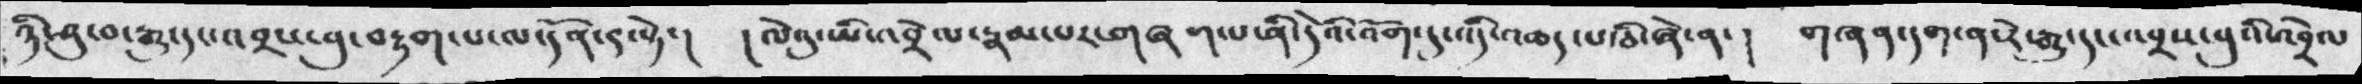ཉི་ཤཱུ་བ་རྒྱུ་དང་འབྲས་བུ་བརྟག་པ་ལ་དོན་༩་སྟེ་། །ལེའུ་ཡི་འབྲེལ་རྣམ་པར་གཞག་པ་ནི་དེའི་འོག་དུ་འདི་འཆད་པ་ཅི་ཞེ་ན་། གཞཉ་དག་ན་རེ་རྒྱུ་དང་འབྲས་བུའི་འབྲེལ་
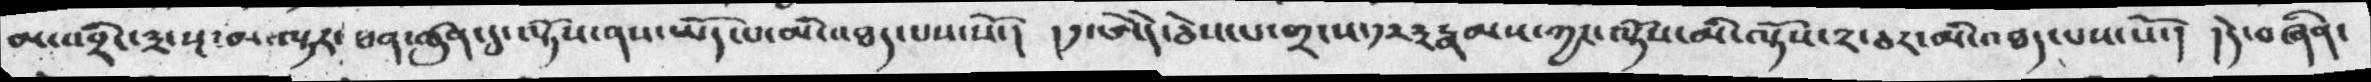མ་འབྲེང་༣་སྔ་མ་ལྟར་ཕན་ཚུན་དུ་ལྟོས་ནས་ཡོད་པ་མི་འཐད་པས་སོ་། །ད༡་ཨེདེ་ཅེས་པ་གྲངས་༡༢༣རྣམས་ཀྱང་ལྟོས་མི་ལྟོས་༢་ཅར་མི་འཐད་པས་སོ་། །དེ་བཞིན་
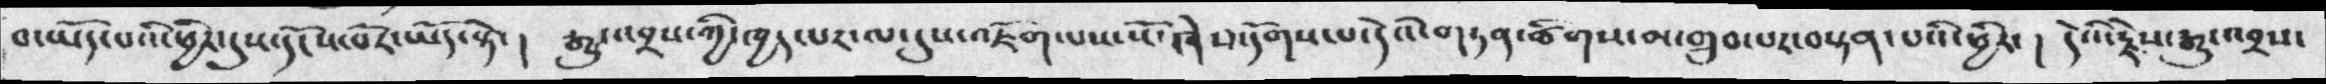བ་ཡདོ་པའི་ཕྱིར་དུས་དངོས་པོར་ཡོད་སྟེ་། རྒྱུ་འབྲས་ཀྱི་ཁྱད་པར་ལ་དུས་འཇོག་པས་སོ་ཞེས་དོགས་པ་དེའི་གཏན་ཚིགས་མ་གྲུབ་པར་བསྟན་པའི་ཕྱིར་། དེའི་རྗེས་རྒྱུ་འབྲས་
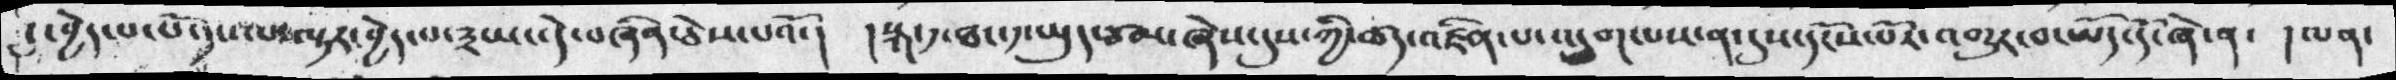དུ་བྱེད་པ་དང་ལ་ལྟར་བྱེད་པ་༣ཡང་དེ་བཞིན་ཅེས་པའོ་། །སྐ་༡་ཐང་༡་ཡུད་ཙམ་ཞེས་དུས་ཀྱི་ཚད་འཛིན་པ་འདུག་པས་ན་དུས་དངོས་པོར་འགྱུར་བ་ཡོད་དོ་ཞེ་ན་། ལན་
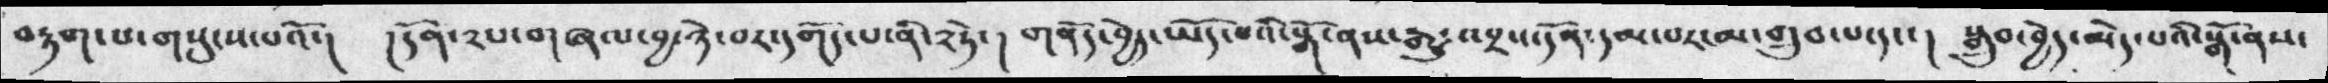བརྟག་པ་གསུངས་པའོ་། །དོན་༢པ་གཞལ་བྱ་ཉེ་བར་དགོད་པ་ནི་༢ཏེ་། གནོད་བྱེད་ཡོད་པའི་སྒོ་ནས་རྒྱུ་འབྲས་དོན་དམ་པ་མ་གྲུབ་པ་དང་། སྒྲུབ་བྱེད་མེད་པའི་སྒོ་ནས་
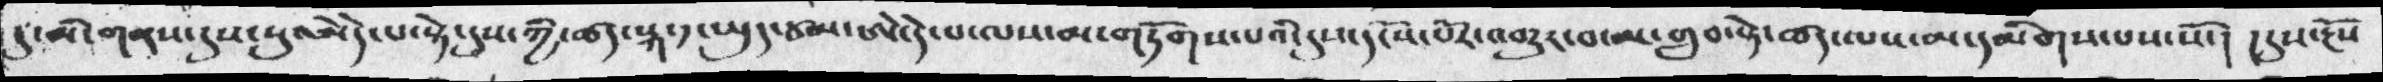དུ་མི་གནས་དུས་སུ་ཨེདེ་པ་སྟེ་དུས་ཀྱི་ཚད་སྐ་༡་ཡུད་ཙམ་ཨེ་དེ་པ་ལས་མ་གཏོགས་པའི་དུས་དངོས་པོར་འགྱུར་བ་མ་གྲུབ་སྟེ་ཚད་ལས་མ་དམིགས་པས་སོ་། །དུས་རྔོས་
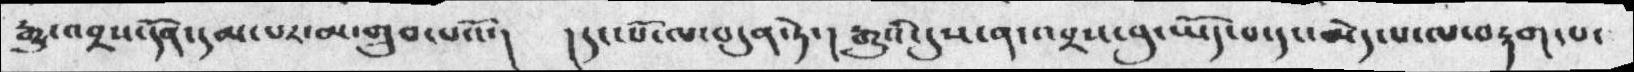རྒྱུ་འབྲས་དོན་དམ་པར་མ་གྲུབ་པའོ་།  །དང་པོ་ལ་བདུན་ཏེ་། རྒྱུའི་དུས་ན་འབྲས་བུ་ཡོད་པ་དང་མེད་པ་ལ་བརྟག་པ་
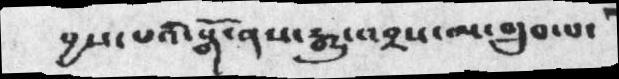བྱས་པའི་སྒོ་ནས་རྒྱུ་འབྲས་མ་གྲུབ་པ་
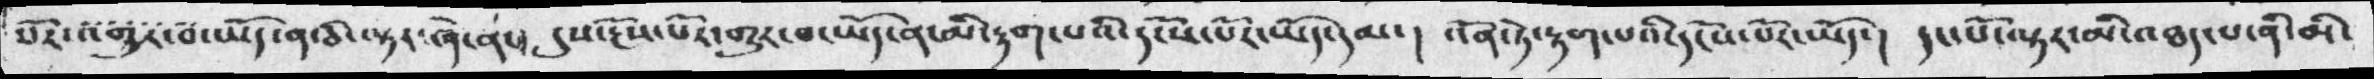པོར་འགྱུར་བ་ཡོད་ན་ཅི་ལྟར་ཞེ་ན་། དུས་རྔོས་པོར་གྱུར་བ་ཡོད་ན་མི་རྟག་པའི་དངོས་པོར་ཡོད་དམ་། འོན་ཏེ་རྟག་པའི་དངོས་པོར་ཡོད་། དང་པོ་ལྟར་མི་འཐད་པ་ནི་མི་
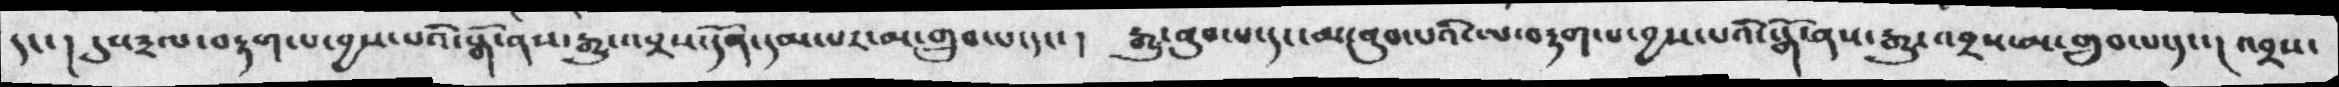དང་། དུས༣ལ་བརྟག་པ་བྱས་པའི་སྒོ་ནས་རྒྱུ་འབྲས་དོན་དམ་པར་མ་གྲུབ་པ་དང་། རྒྱུ་ནུབ་པ་དང་མ་ནུབ་པའི་ལ་བརྟག་པ་བྱས་པའི་སྒོ་ནས་རྒྱུ་འབྲས་མ་གྲུབ་པ་དང་། འབྲས་
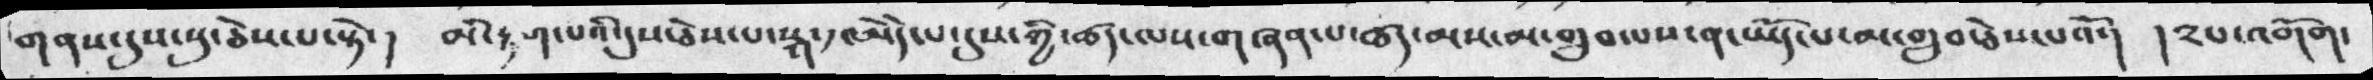གནས་དུས་སུ་ཅེས་པ་སྟེ་། མི་རྟག་པའི་དུས་ཅེས་པ་སྐ་༡་ཨེདེ་པ་དུས་ཀྱི་ཚད་ལས་གཞན་པ་ཚད་མས་མ་གྲུབ་པས་ན་ཡོད་པ་མ་གྲུབ་ཅེས་པའོ་། །༢པ་འགོག་
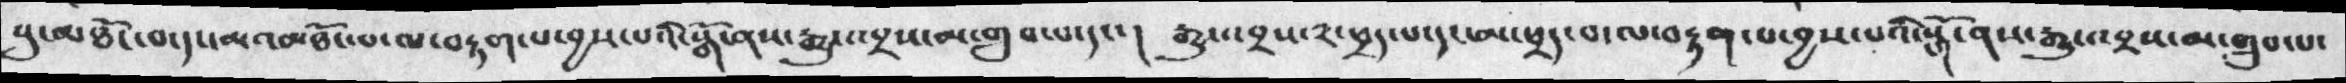སུ་མཐོང་བ་དང་མ་མཐོང་བ་ལ་བརྟག་པ་བྱས་པའི་སྒོ་ནས་རྒྱུ་འབྲས་མ་གྲུབ་པ་དང་། རྒྱུ་འབྲས་༢་ཕྲད་པ་དང་མ་ཕྲད་བ་ལ་བརྟག་པ་བྱས་པའི་སྒོ་ནས་རྒྱུ་འབྲས་མ་གྲུབ་པ་
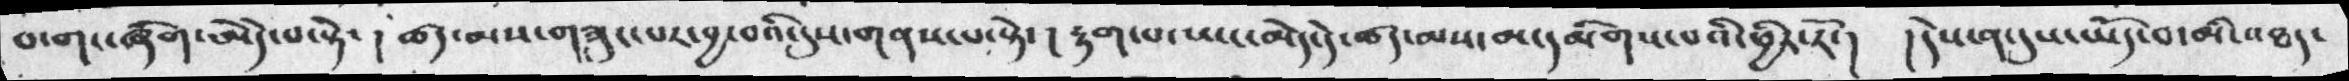བ་གང་ཞིག་ཨེདེ་པ་སྟེ་། ཚད་མས་གཟུང་པར་བྱ་བའི་དུས་གནས་པ་སྟེ་། རྟག་པ་ཡང་མེད་དེ་ཚད་མས་མ་དམིགས་པའི་ཕྱིར་རོ་། །དེས་ན་དུས་ཡོད་བ་མི་འཐད་
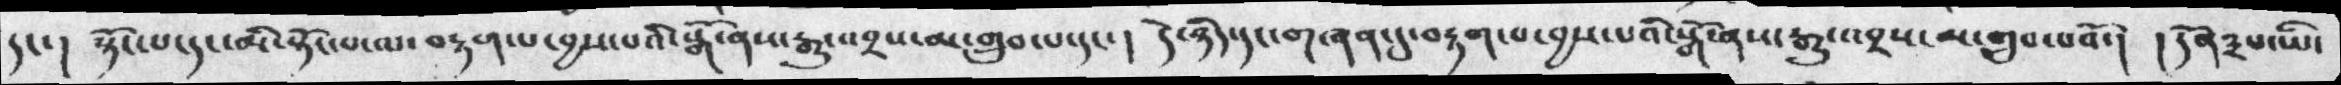དང་། སྟོང་པ་དང་མི་སྟོང་པ་ལ་བརྟག་པ་བྱས་པའི་སྒོ་ནས་རྒྱུ་འབྲས་མ་གྲུབ་པ་དང་། དེ་ཉིད་དང་གཞན་དུ་བརྟག་པ་བྱས་པའི་སྒོ་ནས་རྒྱུ་འབྲས་མ་གྲུབ་པའོ་། །དོན་༣པ་ཡི་
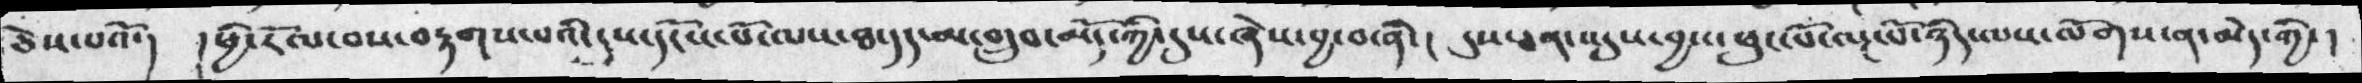ཅེས་པའོ་། །ཕྱི་རོལ་བས་བརྟག་པའི་དུས་དངོས་པོ་ལས་ཐ་དད་མ་གྲུབ་མོད་ཀྱི་ཞེས་བྱ་བ་ནི་། དུས་ཅན་འདུས་བྱས་ཕུང་པོ་ལྔ་པོ་ཉིད་ལས་ལོགས་ན་མེད་ཀྱི་།
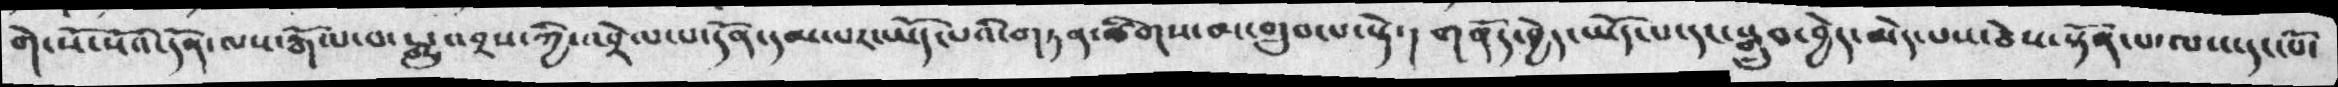གེ་སོ་སོའི་དོན་ལས་རྒོལ་བ་རྒྱུ་འབྲས་ཀྱི་འབྲེལ་བ་དོན་དམ་པར་ཡོད་པའི་གཏན་ཚིགས་མ་གྲུབ་པ་སྟེ་། གནོད་བྱེད་ཡོད་པ་དང་སྒྲུབ་བྱེད་མེད་པས་ཅེས་སྟོན་པ་ལས་དང་པོ་
